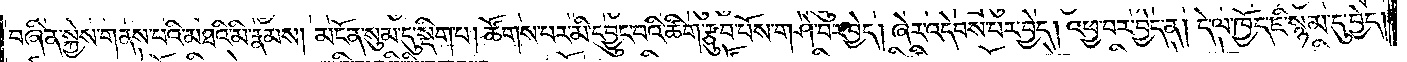བཞིན་སྐྱེས་གནས་པའི་མཐའི་མི་རྣམས། མངོན་སུམ་དུ་སྡིག་པ། ཚོགས་པར་མི་དབྱུང་བའི་ཚིག་རྩུབ་པོས་གཤེ་བར་བྱེད། ཞེར་འདེབས་པར་བྱེད། འཕྱ་བར་བྱེད་ན། དེ་ལ་ཁྱོད་ཇི་སྙམ་དུ་བྱེད།
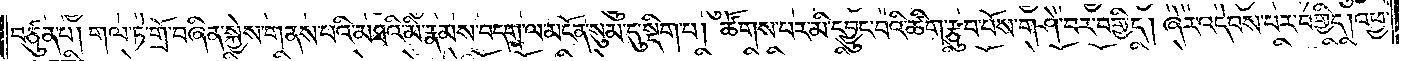བཙུན་པ། གལ་ཏེ་གྲོ་བཞིན་སྐྱེས་གནས་པའི་མཐའི་མི་རྣམས་བདག་ལ་མངོན་སུམ་དུ་སྡིག་པ། ཚོགས་པར་མི་དབྱུང་བའི་ཚིག་རྩུབ་པོས་གཤེ་བར་བགྱིད། ཞེར་འདེབས་པར་བགྱིད། འཕྱ་
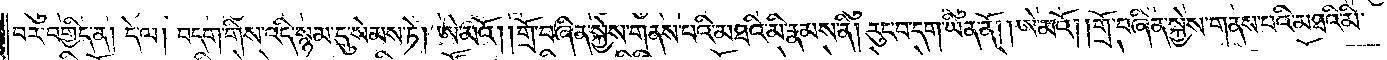བར་བགྱིད་ན། དེ་ལ། བདག་གིས་འདི་སྙམ་དུ་སེམས་ཏེ། ཨེ་མའོ། །གྲོ་བཞིན་སྐྱེས་གནས་པའི་མཐའི་མི་རྣམས་ནི། རུང་བ་དག་ཡིན་ནོ། །ཨེ་མའོ། །གྲོ་བཞིན་སྐྱེས་གནས་པའི་མཐའི་མི་
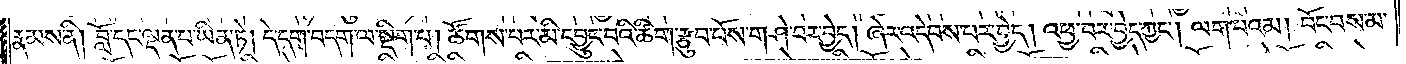རྣམས་ནི། བློ་དང་ལྡན་པ་ཡིན་ཏེ། དེ་དག་བདག་ལ་སྡིག་པ། ཚོགས་པར་མི་དབྱུང་བའི་ཚིག་རྩུབ་པོས་གཤེ་བར་བྱེད། ཞེར་འདེབས་པར་བྱེད། འཕྱ་བར་བྱེད་ཀྱང༌། ལག་པའམ། བོང་བས་མ་
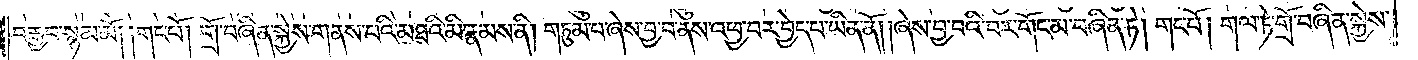བརྒྱབ་སྙམ་མོ། །གང་པོ། གྲོ་བཞིན་སྐྱེས་གནས་པའི་མཐའི་མི་རྣམས་ནི། གཏུམ་པ་ཞེས་བྱ་བ་ནས་འཕྱ་བར་བྱེད་པ་ཡིན་ནོ། །ཞེས་བྱ་བའི་བར་གོང་མ་བཞིན་ཏེ། གང་པོ། གལ་ཏེ་གྲོ་བཞིན་སྐྱེས་
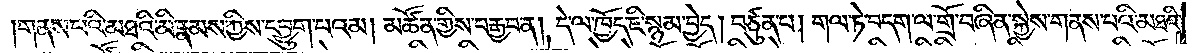གནས་པའི་མཐའི་མི་རྣམས་ཀྱིས་དབྱུག་པའམ། མཚོན་གྱིས་བརྒྱབ་ན། དེ་ལ་ཁྱོད་ཇི་སྙམ་བྱེད། བཙུན་པ། གལ་ཏེ་བདག་ལ་གྲོ་བཞིན་སྐྱེས་གནས་པའི་མཐའི་
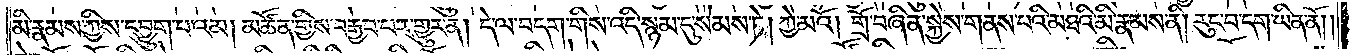མི་རྣམས་ཀྱིས་དབྱུག་པ་འམ། མཚོན་གྱིས་བརྒྱབ་པར་གྱུར་ན། དེ་ལ་བདག་གིས་འདི་སྙམ་དུ་སེམས་ཏེ། ཀྱེ་མའོ། །གྲོ་བཞིན་སྐྱེས་གནས་པའི་མཐའི་མི་རྣམས་ནི། རུང་བ་དག་ཡིན་ནོ། །
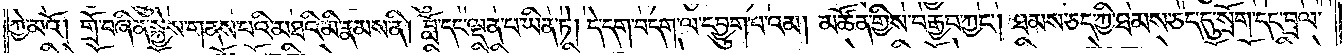ཀྱེ་མའོ། །གྲོ་བཞིན་སྐྱེས་གནས་པའི་མཐའི་མི་རྣམས་ནི། བློ་དང་ལྡན་པ་ཡིན་ཏེ། དེ་དག་བདག་ལ་དབྱུག་པ་འམ། མཚོན་གྱིས་བརྒྱབ་ཀྱང༌། ཐམས་ཅད་ཀྱི་ཐམས་ཅད་དུ་སྲོག་དང་བྲལ་
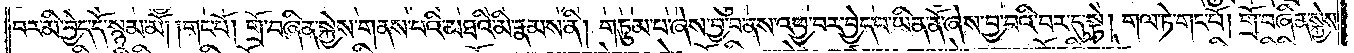བར་མི་བྱེད་དོ་སྙམ་མོ། །གང་པོ། གྲོ་བཞིན་སྐྱེས་གནས་པའི་མཐའི་མི་རྣམས་ནི། གཏུམ་པ་ཞེས་བྱ་བ་ནས་འཕྱ་བར་བྱེད་པ་ཡིན་ནོ་ཞེས་བྱ་བའི་བར་དུ་སྟེ། གལ་ཏེ་གང་པོ། གྲོ་བཞིན་སྐྱེས་
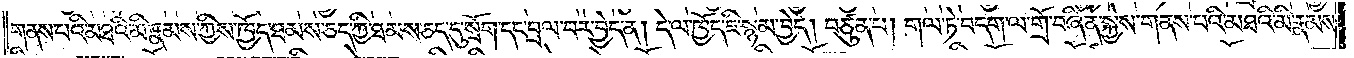གནས་པའི་མཐའི་མི་རྣམས་ཀྱིས་ཁྱོད་ཐམས་ཅད་དུ་སྲོག་དང་བྲལ་བར་བྱེད་ན། དེ་ལ་ཁྱོད་ཇི་སྙམ་བྱེད། བཙུན་པ། གལ་ཏེ་བདག་ལ་གྲོ་བཞིན་སྐྱེས་གནས་པའི་མཐའི་མི་རྣམས་
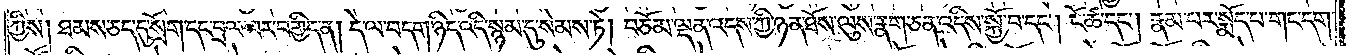ཀྱིས། ཐམས་ཅད་དུ་སྲོག་དང་བྲལ་བར་བགྱིད་ན། དེ་ལ་བདག་ཉིད་འདི་སྙམ་དུ་སེམས་ཏེ། བཅོམ་ལྡན་འདས་ཀྱི་ཉན་ཐོས་ལུས་རྣག་ཅན་འདིས་སྐྱོ་བ་དང༌། ངོ་ཚ་དང༌། རྣམ་པར་སྨོད་པ་གང་དག་
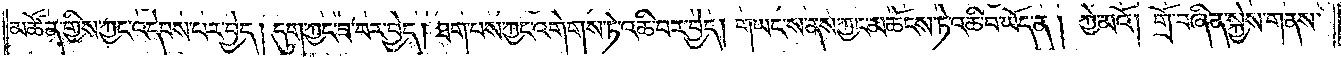མཚོན་གྱིས་ཀྱང་འདེབས་པར་བྱེད། དུག་ཀྱང་ཟ་བར་བྱེད། ཐག་པས་ཀྱང་འགེགས་ཏེ་འཆི་བར་བྱེད། གཡང་ས་ནས་ཀྱང་མཆོངས་ཏེ་འཆི་བ་ཡོད་ན། ཀྱེ་མའོ། །གྲོ་བཞིན་སྐྱེས་གནས་
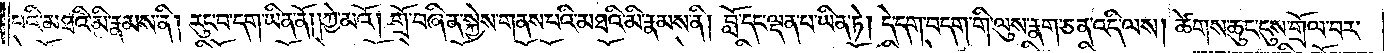པའི་མཐའི་མི་རྣམས་ནི། རུང་བ་དག་ཡིན་ནོ། །ཀྱེ་མའོ། །གྲོ་བཞིན་སྐྱེས་གནས་པའི་མཐའི་མི་རྣམས་ནི། བློ་དང་ལྡན་པ་ཡིན་ཏེ། དེ་དག་བདག་གི་ལུས་རྣག་ཅན་འདི་ལས། ཚོགས་ཆུང་དུས་གྲོལ་བར་
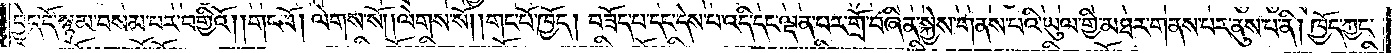བྱེད་དོ་སྙམ་བསམ་པར་བགྱིའོ། །གང་པོ། ལེགས་སོ། །ལེགས་སོ། །གང་པོ་ཁྱོད། བཟོད་པ་དང་དེས་པ་འདི་དང་ལྡན་པར་གྲོ་བཞིན་སྐྱེས་གནས་པའི་ཡུལ་གྱི་མཐར་གནས་པར་ནུས་པ་ནི། ཁྱོད་ཀྱང་
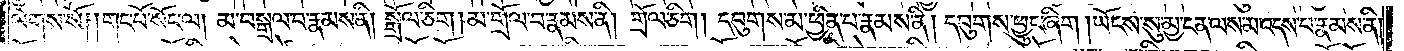ལེགས་སོ། །གང་པོ་སོང་ལ། མ་བསྒྲལ་བ་རྣམས་ནི། སྒྲོལ་ཅིག །མ་གྲོལ་བ་རྣམས་ནི། གྲོལ་ཅིག །དབུགས་མ་ཕྱིན་པ་རྣམས་ནི། དབུགས་ཕྱུང་ཞིག །ཡོངས་སུ་མྱ་ངན་ལས་མ་འདས་པ་རྣམས་ནི།
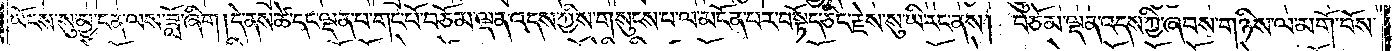ཡོངས་སུ་མྱ་ངན་ལས་ཟློ་ཞིག །དེ་ནས་ཚེ་དང་ལྡན་པ་གང་པོ་བཅོམ་ལྡན་འདས་ཀྱིས་གསུངས་པ་ལ་མངོན་པར་བསྟོད་ཅིང་རྗེས་སུ་ཡི་རང་ནས། བཅོམ་ལྡན་འདས་ཀྱི་ཞབས་གཉིས་ལ་མགོ་བོས་
